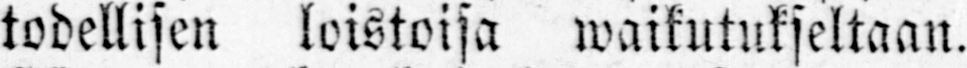todellisen loistoisa waikutukseltaan.
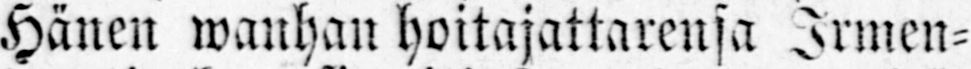Hänen wanhan hoitajattarensa Irmen-
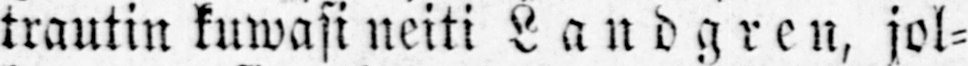trautin kuwasi neiti Landgren, jol-
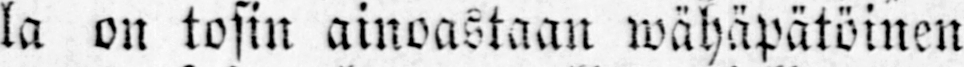la on tosin ainoastaan wähapätöinen
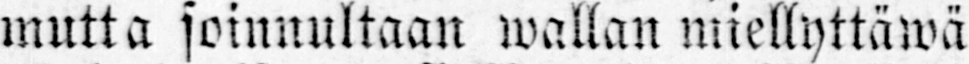mutta soinnultaan wallan miellyttäwä
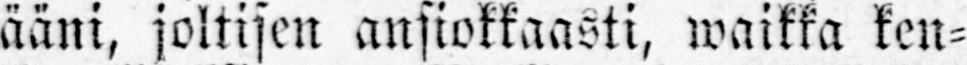ääni, joltisen ansiokkaasti, waikka ken-
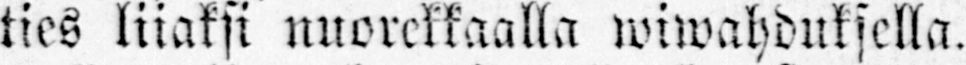ties liiaksi nuorekkaalla wiwahduksella.
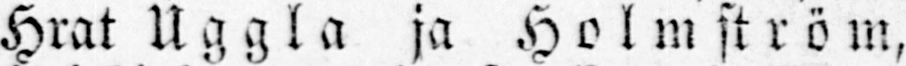Hrat Uggla ja Holmström,
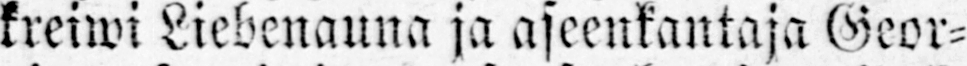kreiwi Liebenauna ja aseenkantaja Geor-
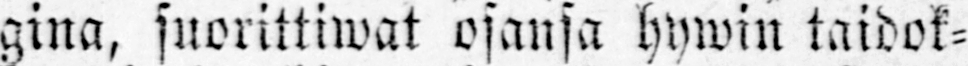gina, suorittiwat osansa hywin taidok-
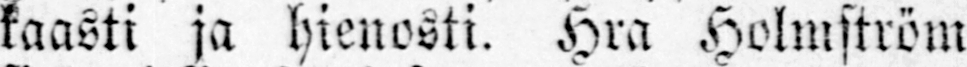kaasti ja hienosti. Hra Holmström
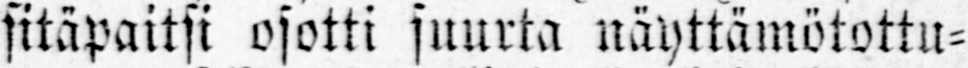sitäpaitsi osotti suurta näyttämötottu-
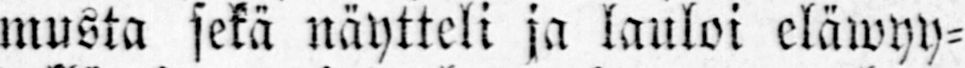musta sekä näytteli ja lauloi eläwyy-
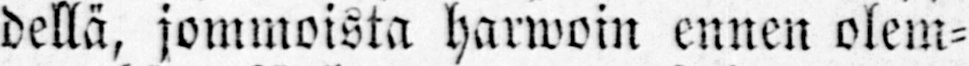dellä, jommoista harwoin ennen olem-
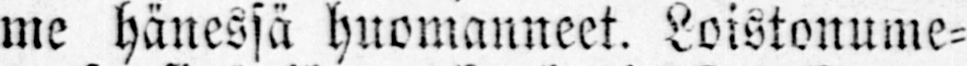me hänessä huomanneet. Loistonume-
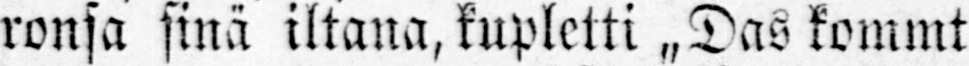ronsa sinä iltana, kupletti „Das kommt
